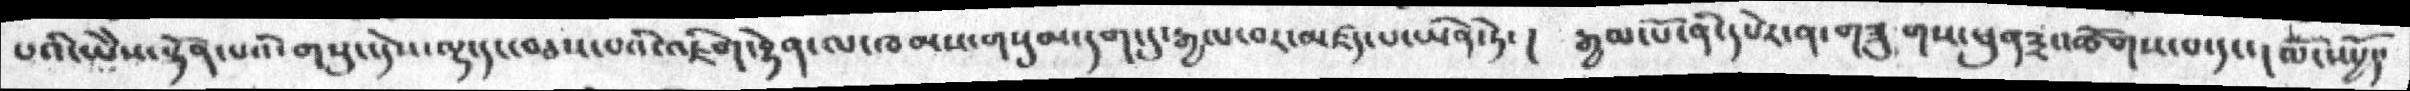པའི་ཡེེས་སྟོན་པའི་གསུང་དེས་ལྷ་དང་བཅས་པའི་འཇིག་རྟེན་ལ་ཁམས་གསུམ་དག་དུ་རྒྱལ་བར་མཛད་པ་ཡིན་ཏེ་།  རྒྱལ་པོ་ནི་དཔེར་ན་གཟུགས་ཕུན༣འཚོགས་པ་དང་།  ལོང་སྤྱོད་
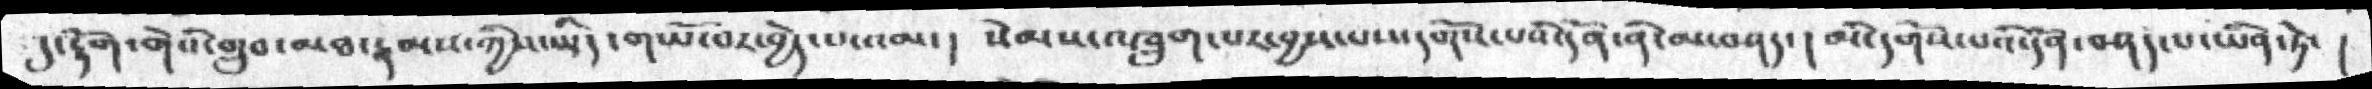དུ་རྟོག་གེའི་གྲུབ་མཐ་རྣམས་ཀྱིས་ཡིད་གཡོ་བར་བྱེད་པས་མ་།  སེམས་འཁྲུགས་པར་བྱས་པས་དགོས་པའི་དོན་ནི་མ་བཤད་། མི་དགོས་པའི་དོན་བཤད་པ་ཡིན་ཏེ་ །
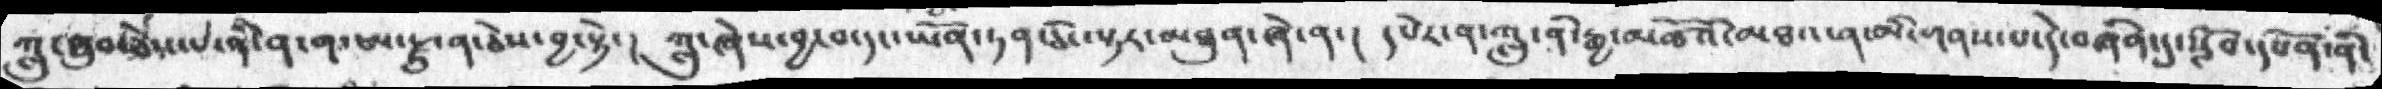ཀླུ་གྲུབ་ཅེས་པ་ནི་ན་ག་ཨ་རྫུ་ན་ཅེས་བྱ་སྟེ་། ཀླུ་ཞེས་བྱ་བ་དང་ཡོན་ཏན་ཅི་ལྟར་མཐུན་ཞེ་ན་། དཔེར་ན་ཀླུ་ནི་རྒྱ་མཚོའི་མཐའ་ན་མི་གནས་པ་དེ་བཞིན་དུ་སློབ་དཔོན་ནི་
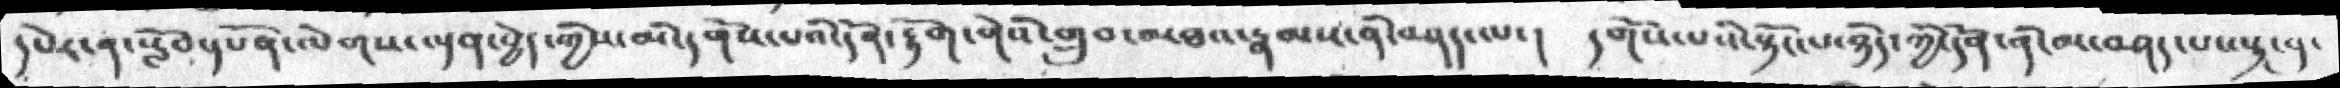དཔེར་ན་སློབ་དཔོན་ལེགས་ལྡན་བྱེད་གྱིས་མི་དགོས་པའི་དོན་རྟོག་གེའི་གྲུབ་མཐའ་རྣམས་ནི་བཤད་ལ་།  དགོས་པའི་སྟོང་པ་ཉིད་ཀྱི་དོན་ནི་མ་བཤད་པ་ལྟ་བུ་
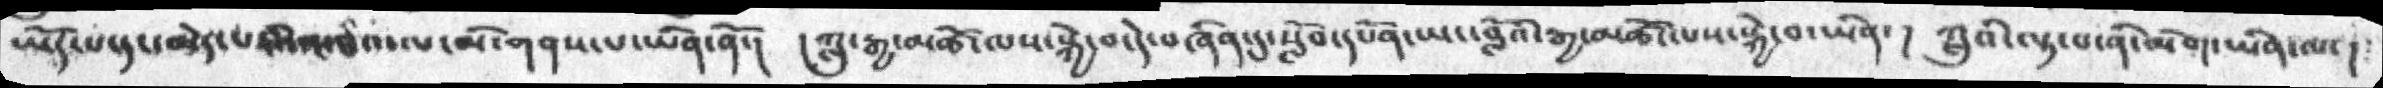ཡོད་པ་དང་མེད་པའི་མཐའ་ལ་མི་གནས་པ་ཡིན་ནོ་།  །ཀླུ་རྒྱ་མཚོ་ལས་སྐྱེ་བ་དེ་བཞིན་དུ་སློབ་དཔོན་ཡང་བློའི་རྒྱ་མཚོ་ལས་སྐྱེ་བ་ཡིན་།  ཀླུའི་ལྟ་བ་ནི་མིག་ཡིན་ལ་།
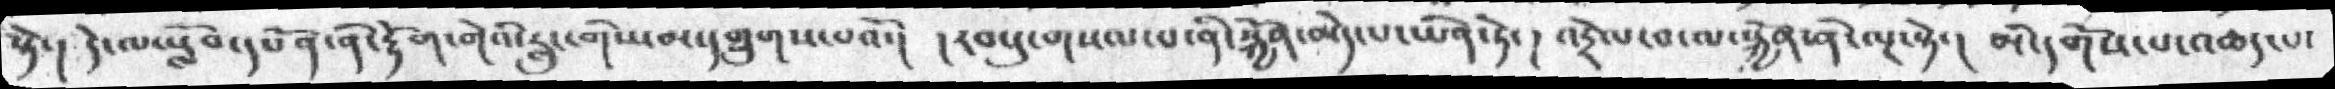སྟེ་། དེ་ལ་སློབ་དཔོན་ནི་རྟོག་གེའི་རླུང་གིས་མ་དགྲུགས་པའོ་། །རབ་དུ་གསལ་བ་ནི་སྐྱོན་མེད་པ་ཡིན་ཏེ་། འདྲེལ་བ་ལ་སྐྱོན་ནི་ལྔ་སྟེ་། མི་དགོས་པ་འཆད་པ་
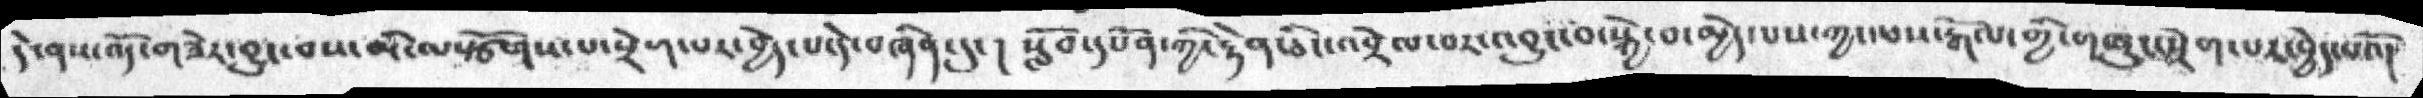དེ་ནས་འོད་གཟེར་བྱུང་བས་མི་ལསྩོགས་པ་སྲེག་པར་བྱེད་པ་དེ་བཞིན་དུ་། སློབ་དཔོན་གྱི་རྟེན་ཅིང་འབྲེལ་བར་འབྱུང་བ་སྐྱེ་བ་མྱེད་པས་ཀྱང་ལས་རྒོལ་གྱི་གཞུང་སྲེག་པར་བྱེད་པའོ་།
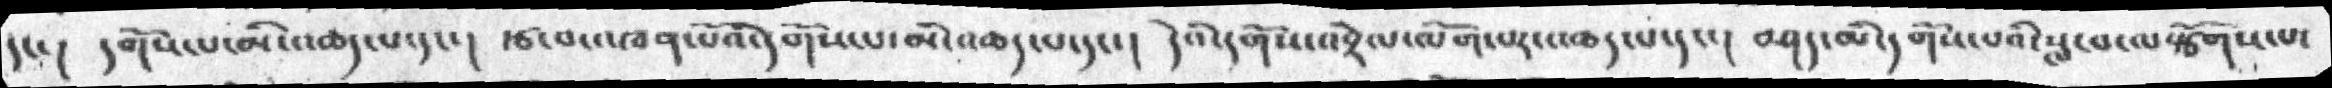དང་། དགོས་པ་མི་འཆད་པ་དང་།  རྩ་བ་མཁན་པོའི་དགོས་པ་མི་འཆད་པ་དང་།  དེའི་དགོས་འབྲེལ་ལོག་པར་འཆད་པ་དང་།  བཤད་མི་དགོས་པའི་སླ་བ་ལསྩོགས་པ་
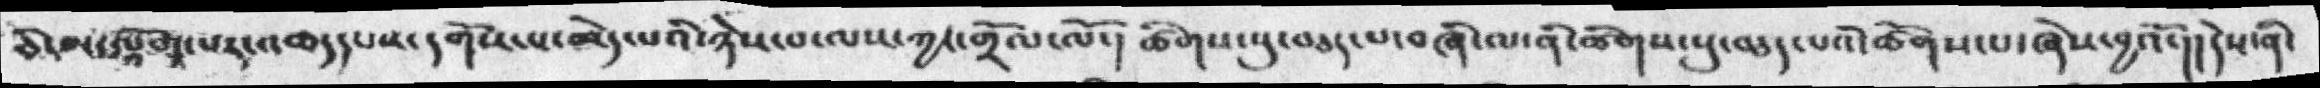ཅི་མ་ལྡོག་པར་འཆད་པས་དགོས་པ་མེད་པའི་ཉེས་པ་ལས་གྲོལ་ལོ་།  ཚིགས་སུ་བཅད་པ་བཞི་ལ་ནི་ཚིགས་སུ་བཅད་པའི་ཚོགས་པ་ཞེས་བྱའོ་།།དེས་ནི་
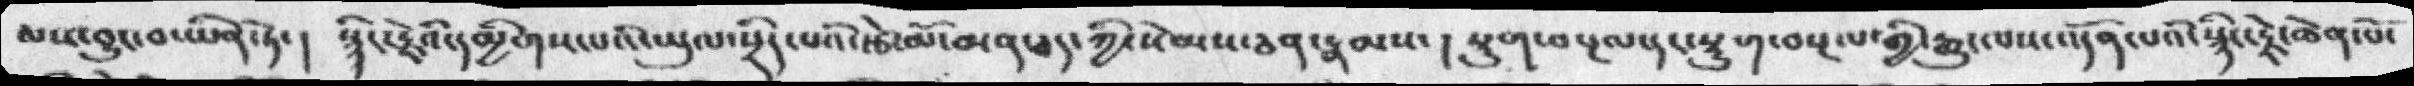ལས་འབྱུར་བ་ཡིན་ཏེ་།  སྙིང་རྗེའི་དམྱིགས་པའི་ཡུལ་སྲིད་པའི་རྩེ་མོ་མན་ཅད་ཀྱི་སེམས་ཅན་རྣམས་། སྡུག་བསྔལ་དང་སྡུག་བསྔལ་གྱི་རྒྱུ་ལས་འདོན་པའི་སྙིང་རྗེ་ཆེན་པོ་
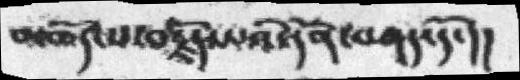མཆོད་པ་བརྗོད་པའི་དོན་བཤད་དོ་།།
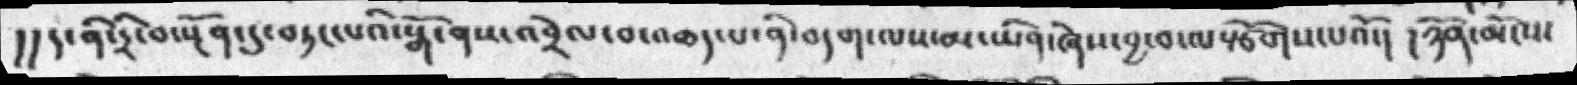།།ད་ནི་དྲི་བ་སྔོན་དུ་བཏང་པའི་སྒོ་ནས་འབྲེལ་བ་འཆད་པ་ནི་བདག་ལས་མ་ཡིན་ཞེས་བྱ་བ་ལསྩོགས་པའོ་། །ཉོན་མོངས་
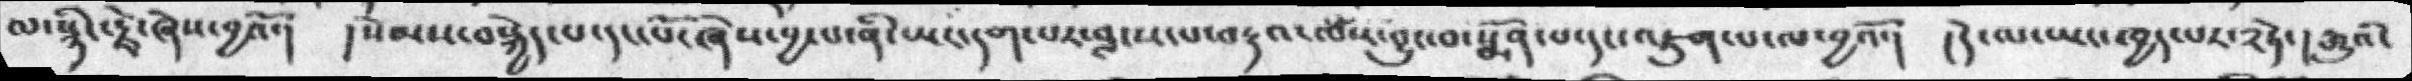ལ་སྙིང་རྗེ་ཞེ་བྱའོ་།  །སེམས་བསྐྱེད་པ་དང་པོ་ཞེས་བྱ་བ་ནི་ཡང་དག་པར་བླངས་པ་བརྡའ་ལས་བྱུང་བ་སྨོན་པ་དང་འཇུག་པ་ལ་བྱའོ་།  །དེ་ལ་ཡང་ཁྱད་པར་༢ཏེ་། རྒྱུའི་
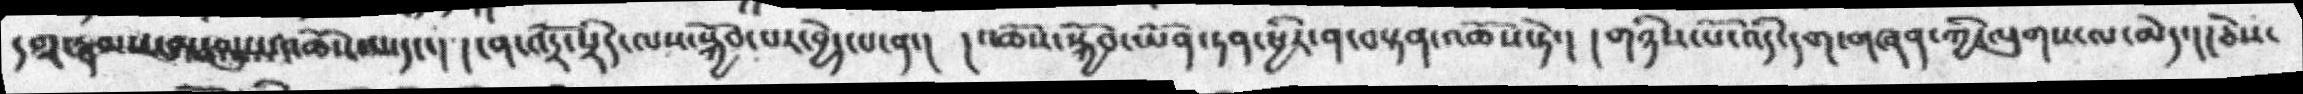དགྲ་རྣམས་མ་ལུས་འཆོས་པ་དང་། །ངན་འདྲོ་སྲིད་པས་སྐྱོབ་པར་བྱེད་པ་ན་། །འཆོས་སྐྱོབ་ཡོན་ཏན་ཕྱིར་ན་བསྟན་འཆོས་ཏེ་། །གཉིས་པོ་འདི་དག་གཞན་གྱི་ལུགས་ལ་མེད་།།ཅེས་
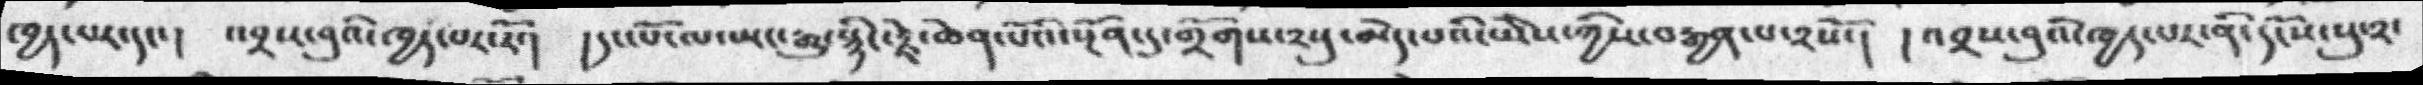ཁྱད་པར་དང་། འབྲས་བུའི་ཁྱད་པར་རོ་།  །དང་པོ་ལ་ཡང་རྒྱུ་སྙིང་རྗ་ཆེན་པོའི་སྔོན་དུ་གྲོགས་༢སུ་མེད་པའི་ཡེེས་ཀྱིས་བརྒྱན་པ་༢སོ་།  །འབྲས་བུའི་ཁྱད་པར་ནི་དངོས་སུ་༢་
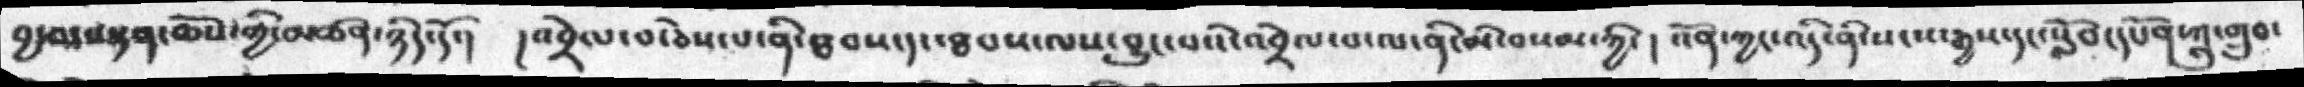བྱ་བ་བསྟན་ཆོས་གྱི་མཚན་ཉིད་དོ་། །འབྲེལ་བ་ཅེས་པ་ནི་ཐབས་དང་ཐབས་ལས་བྱུང་བའི་འབྲེལ་པ་ལ་ནི་མི་བསམ་ཀྱི་། འོན་ཀྱང་འདི་ནི་སངས་རྒྱས་དང་སློབ་དཔོན་ཀླུ་གྲུབ་
